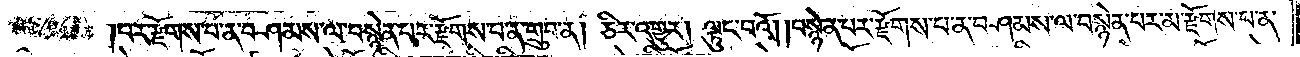།པར་རྫོགས་པ་ན་བཤམས་ལ་བསྙེན་པར་རྫོགས་པ་ན་གྲུབ་ན། ཅིར་འགྱུར། ལྟུང་བའོ། །བསྙེན་པར་རྫོགས་པ་ན་བཤམས་ལ་བསྙེན་པར་མ་རྫོགས་པ་ན་
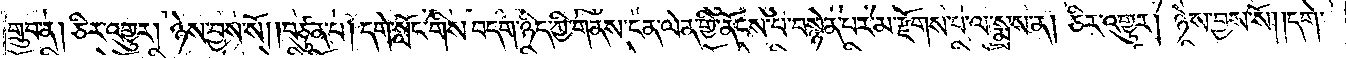གྲུབ་ན། ཅིར་འགྱུར། ཉེས་བྱས་སོ། །བཙུན་པ། དགེ་སློང་གིས་བདག་ཉིད་ཀྱི་གནས་ངན་ལེན་གྱི་ནོངས་པ་བསྙེན་པར་མ་རྫོགས་པ་ལ་སྨྲས་ན། ཅིར་འགྱུར། ཉེས་བྱས་སོ། །དགེ་
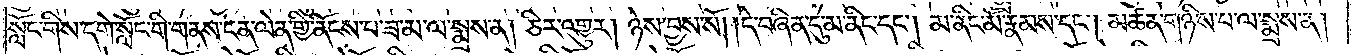སློང་གིས་དགེ་སློང་གི་གནས་ངན་ལེན་གྱི་ནོངས་པ་ཟ་མ་ལ་སྨྲས་ན། ཅིར་འགྱུར། ཉེས་བྱས་སོ། །དེ་བཞིན་དུ་མ་ནིང་དང༌། མ་ནིང་མོ་རྣམས་དང༌། མཚན་གཉིས་པ་ལ་སྨྲས་ན།
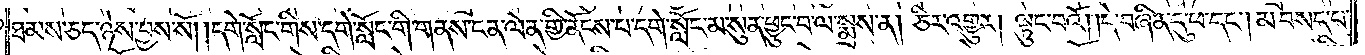ཐམས་ཅད་ཉེས་བྱས་སོ། །དགེ་སློང་གིས་དགེ་སློང་གི་གནས་ངན་ལེན་གྱི་ནོངས་པ་དགེ་སློང་མ་སུན་ཕྱུང་བ་ལ་སྨྲས་ན། ཅིར་འགྱུར། ལྟུང་བའོ། །དེ་བཞིན་དུ་ཕ་དང༌། མ་བསད་པ་
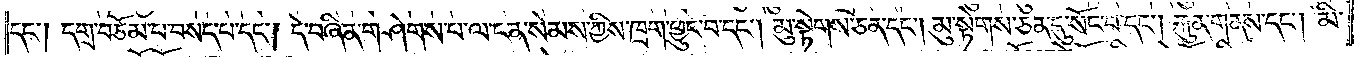དང༌། དགྲ་བཅོམ་པ་བསད་པ་དང༌། དེ་བཞིན་གཤེགས་པ་ལ་ངན་སེམས་ཀྱིས་ཁྲག་ཕྱུང་བ་དང༌། མུ་སྟེགས་ཅན་དང༌། མུ་སྟེགས་ཅན་དུ་སོང་བ་དང༌། རྐུན་གནས་དང༌། མི་
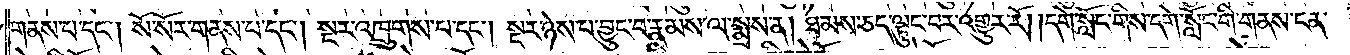གནས་པ་དང༌། སོ་སོར་གནས་པ་དང༌། སྔར་འཁྲུགས་པ་དང༌། སྔར་ཉེས་པ་བྱུང་བ་རྣམས་ལ་སྨྲས་ན། ཐམས་ཅད་ལྟུང་བར་འགྱུར་རོ། །དགེ་སློང་གིས་དགེ་སློང་གི་གནས་ངན་
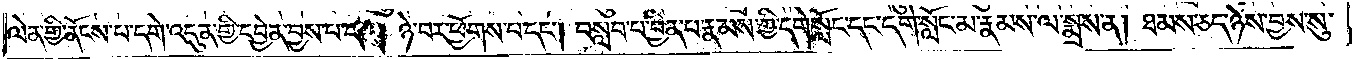ལེན་གྱི་ནོངས་པ་དགེ་འདུན་གྱི་དབྱེན་བྱས་པ་དང༌། ཉེ་བར་ཕྱོགས་པ་དང༌། བསླབ་པ་བྱིན་པ་རྣམས་ཀྱི་དགེ་སློང་དང་དགེ་སློང་མ་རྣམས་ལ་སྨྲས་ན། ཐམས་ཅད་ཉེས་བྱས་སུ་
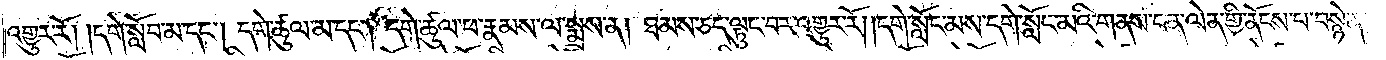འགྱུར་རོ། །དགེ་སློབ་མ་དང༌། དགེ་ཚུལ་མ་དང༌། དགེ་ཚུལ་ཕ་རྣམས་ལ་སྨྲས་ན། ཐམས་ཅད་ལྟུང་བར་འགྱུར་རོ། །དགེ་སློང་མས་དགེ་སློང་མའི་གནས་ངན་ལེན་གྱི་ནོངས་པ་བསྙེན་
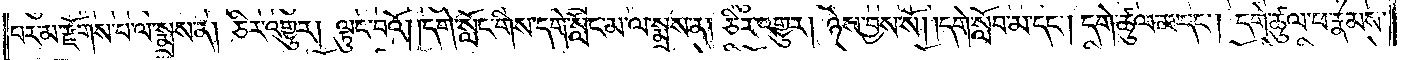པར་མ་རྫོགས་པ་ལ་སྨྲས་ན། ཅིར་འགྱུར། ལྟུང་བའོ། །དགེ་སློང་གིས་དགེ་སློང་མ་ལ་སྨྲས་ན། ཅིར་འགྱུར། ཉེས་བྱས་སོ། །དགེ་སློབ་མ་དང༌། དགེ་ཚུལ་མ་དང༌། དགེ་ཚུལ་ཕ་རྣམས་
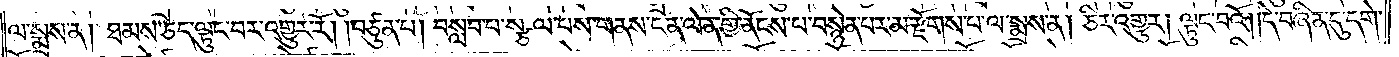ལ་སྨྲས་ན། ཐམས་ཅད་ལྟུང་བར་འགྱུར་རོ། །བཙུན་པ། བསླབ་པ་སྩལ་པས་གནས་ངན་ལེན་གྱི་ནོངས་པ་བསྙེན་པར་མ་རྫོགས་པ་ལ་སྨྲས་ན། ཅིར་འགྱུར། ལྟུང་བའོ། །དེ་བཞིན་དུ་དགེ་
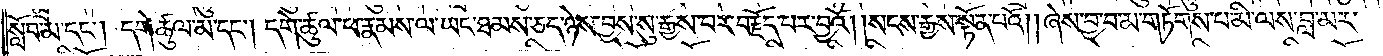སློབ་མ་དང༌། དགེ་ཚུལ་མ་དང༌། དགེ་ཚུལ་ཕ་རྣམས་ལ་ཡང་ཐམས་ཅད་ཉེས་བྱས་སུ་རྒྱས་པར་བརྗོད་པར་བྱའོ། །སངས་རྒྱས་སྟོན་པའོ། །ཞེས་བྱ་བ་མ་གཏོགས་པ་མི་ལས་བླ་མར་
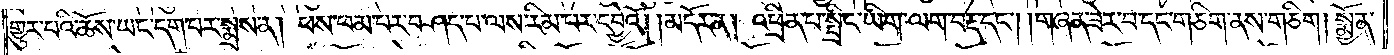གྱུར་པའི་ཆོས་ཡང་དག་པར་སྨྲས་ན། ཕས་ཕམ་པར་བཤད་པ་ལས་རིམ་པར་དབྱེའོ།    །མདོར་ན། འཕྲིན་པ་སྤྲིང་ཡིག་ལག་བརྡ་དང༌། །གཞན་ཟེར་བ་དང་གཅིག་ནས་གཅིག། སྨྱོན་
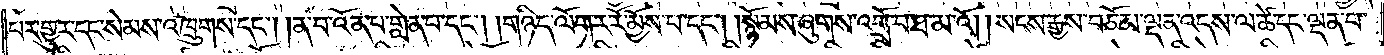པར་གྱུར་དང་སེམས་འཁྲུགས་དང༌། །ན་བ་འོན་པ་གླེན་པ་དང༌། །གཉིད་ལོག་ར་རོ་མྱོས་པ་དང༌། །སྙོམས་ཞུགས་འགྲོ་བ་ཐ་མའོ། །སངས་རྒྱས་བཅོམ་ལྡན་འདས་ལ་ཚེ་དང་ལྡན་པ་
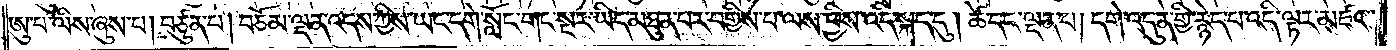ཨུ་པ་ལིས་ཞུས་པ། བཙུན་པ། བཅོམ་ལྡན་འདས་ཀྱིས་ཡང་དགེ་སློང་གང་སྔར་ཡིད་མཐུན་པར་བགྱིས་པ་ལས་ཕྱིས་འདི་སྐད་དུ། ཚེ་དང་ལྡན་པ། དགེ་འདུན་གྱི་རྙེད་པ་འདི་ལྟར་མཛའ་
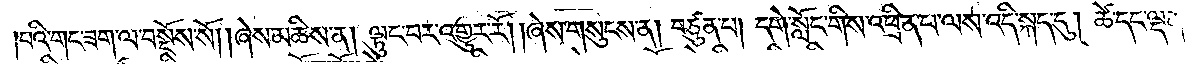བའི་གང་ཟག་ལ་བསྔོས་སོ། །ཞེས་མཆིས་ན། ལྟུང་བར་འགྱུར་རོ། །ཞེས་གསུངས་ན། བཙུན་པ། དགེ་སློང་གིས་འཕྲིན་པ་ལས་འདི་སྐད་དུ། ཚེ་དང་ལྡན་
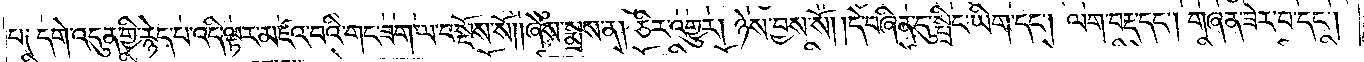པ༑ དགེ་འདུན་གྱི་རྙེད་པ་འདི་ལྟར་མཛའ་བའི་གང་ཟག་ལ་བསྔོས་སོ། །ཞེས་སྨྲས་ན། ཅིར་འགྱུར། ཉེས་བྱས་སོ། །དེ་བཞིན་དུ་སྤྲིང་ཡིག་དང༌། ལག་བརྡ་དང༌། གཞན་ཟེར་བ་དང༌།
